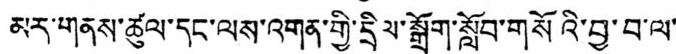མར་གནས་ཚུལ་དང་ལས་འགན་གྱི་དྲིལ་སྒྲོག་སློབ་གསོའི་བྱ་བ་ལ་་
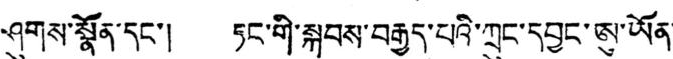ཤུགས་སྣོན་དང་། ཏང་གི་སྐབས་བརྒྱད་པའི་ཀྲུང་དབྱང་ཨུ་ཡོན་
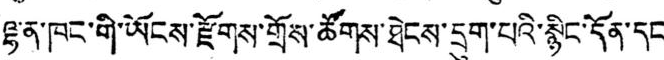ལྷན་ཁང་གི་ཡོངས་རྫོགས་གྲོས་ཚོགས་ཐེངས་དྲུག་པའི་སྙིང་དོན་དང་
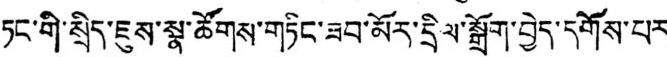ཏང་གི་སྲིད་ཇུས་སྣ་ཚོགས་གཏིང་ཟབ་མོར་དྲིལ་སྒྲོག་བྱེད་དགོས་པར་
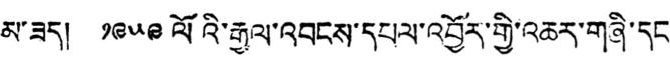མ་ཟད། ༡༩༥༩ ལོའི་རྒྱལ་འབངས་དཔལ་འབྱོར་གྱི་འཆར་གཞི་དང་
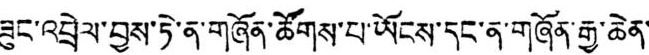ཟུང་འབྲེལ་བྱས་ཏེ་ན་གཞོན་ཚོགས་པ་ཡོངས་དང་ན་གཞོན་རྒྱ་ཆེན་་་
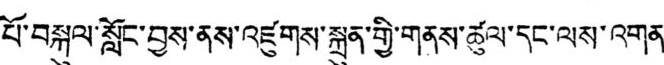པོ་བསྐུལ་སློང་བྱས་ནས་འཛུགས་སྐྲུན་གྱི་གནས་ཚུལ་དང་ལས་འགན་
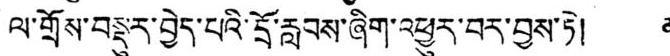ལ་གྲོས་བསྡུར་བྱེད་པའི་དྲོ་རླབས་ཞིག་འཕྱུར་བར་བྱས་ཏེ། ན་
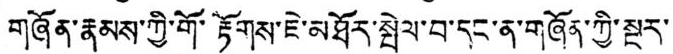གཞོན་རྣམས་ཀྱི་གོ་རྟོགས་ཇེ་མཐོར་སྤེལ་བ་དང་ན་གཞོན་ཀྱི་སྔར་་་
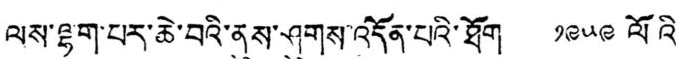ལས་ལྷག་པར་ཆེ་བའི་ནུས་ཤུགས་འདོན་པའི་ཐོག ༡༩༥༩ ལོའི་
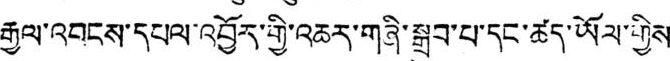རྒྱལ་འབངས་དཔལ་འབྱོར་གྱི་འཆར་གཞི་སྒྲུབ་པ་དང་ཚད་ཡོལ་གྱིས་
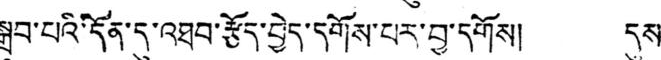སྒྲུབ་པའི་དོན་དུ་འཐབ་རྩོད་བྱེད་དགོས་པར་བྱ་དགོས། དུས་
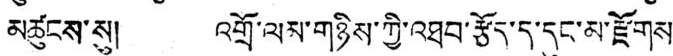མཚུངས་སུ། འགྲོ་ལམ་གཉིས་ཀྱི་འཐབ་རྩོད་ད་དུང་མ་རྫོགས་
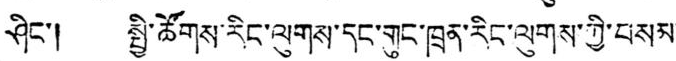ཤིང་། སྤྱི་ཚོགས་རིང་ལུགས་དང་གུང་ཁྲན་རིང་ལུགས་ཀྱི་བསམ་
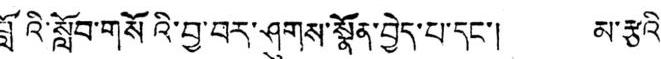བློའི་སློབ་གསོའི་བྱ་བར་ཤུགས་སྣོན་བྱེད་པ་དང་། མ་རྩའི་
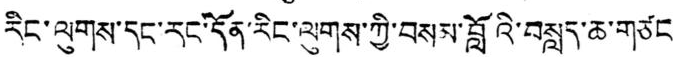རིང་ལུགས་དང་རང་དོན་རིང་ལུགས་ཀྱི་བསམ་བློའི་བསླད་ཆ་གཙང་
